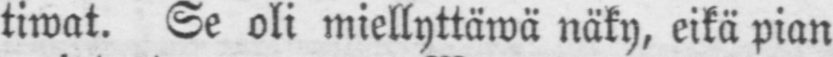tiwat. Se oli miellyttäwä näky, eikä pian
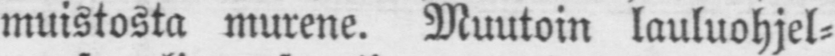muistosta murene. Muutoin lauluohjel-
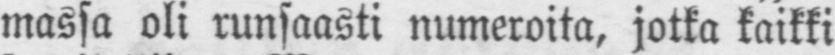massa oli runsaasti numeroita, jotka kaikki
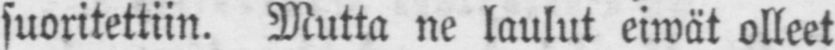suoritettiin. Mutta ne laulut eiwät olleet
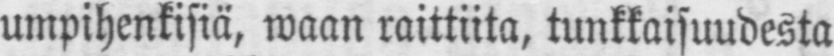umpihenkisiä, waan raittiita, tunkkaisuudesta
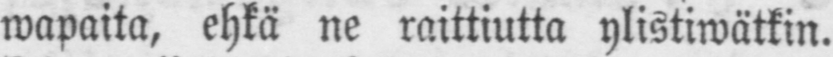wapaita, ehkä ne raittiutta ylistiwätkin.
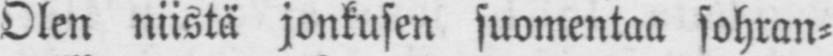Olen niistä jonkusen suomentaa sohran-
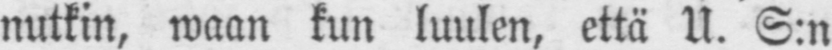nutkin, waan kun luulen, että U. S:n
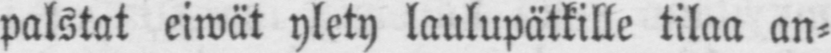palstat eiwät ylety laulupätkille tilaa an-
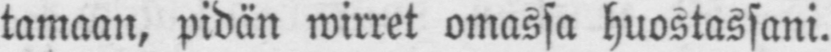tamaan, pidän wirret omassa huostassani.
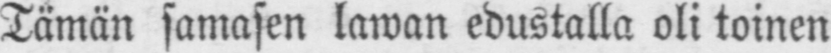Tämän samasen lawan edustalla oli toinen
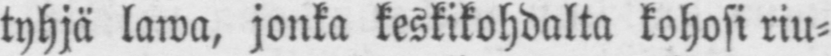tyhjä lawa, jonka keskikohdalta kohosi riu-
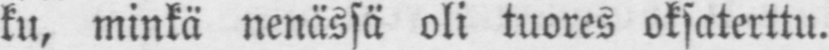ku, minkä nenässä oli tuores oksaterttu.
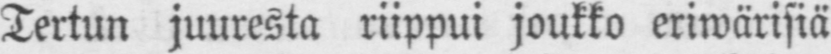Tertun juuresta riippui joukko eriwärisiä
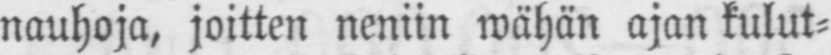nauhoja, joitten neniin wähän ajan kulut-
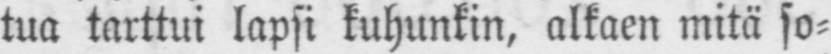tua tarttui lapsi kuhunkin, alkaen mitä so-
